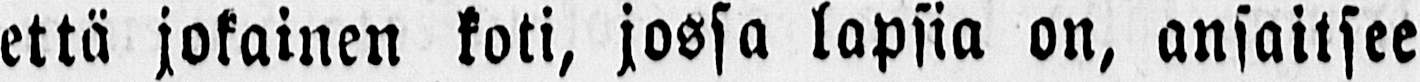että jokainen koti, jossa lapsia on, ansaitsee
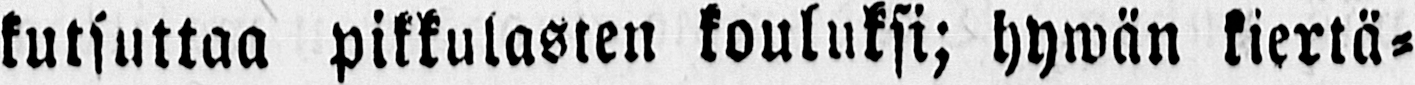kutsuttaa pikkulasten kouluksi; hywän kiertä-
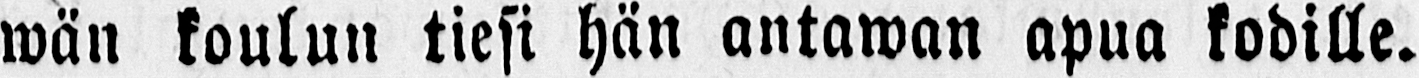wän koulun tiesi hän antawan apua kodille.
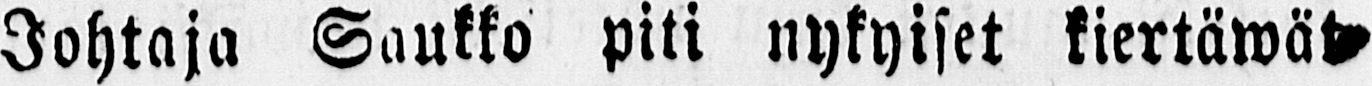Johtaja Saukko piti nykyiset kiertäwät
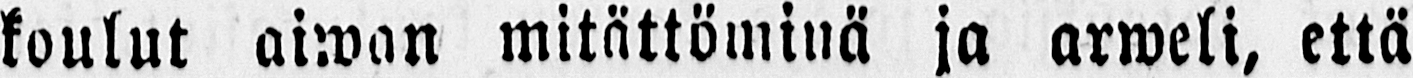koulut aiwan mitättöminä ja arweli, että
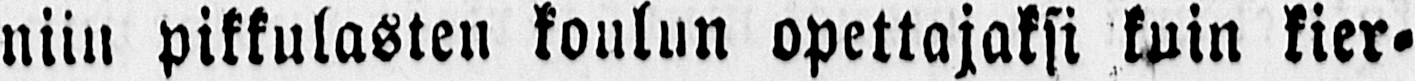niin pikkulasten koulun opettajaksi kuin kier-
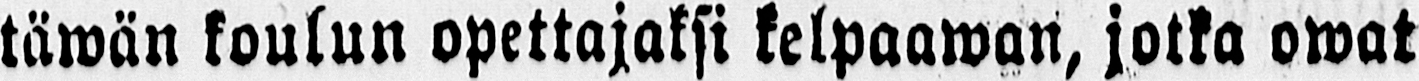täwän koulun opettajaksi kelpaawan, jotka owat
